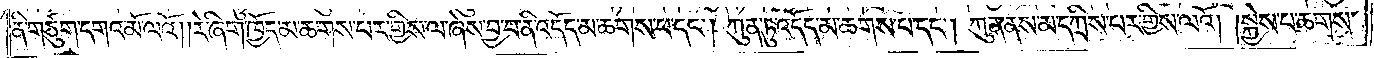ནི་གཙུག་དགའ་མོ་ལའོ། །རེ་ཞིག་ཁྱོད་མ་ཆགས་པར་གྱིས་ལ་ཞེས་བྱ་བ་ནི་འདོད་མ་ཆགས་པ་དང༌། ཀུན་ཏུ་འདོད་མ་ཆགས་པ་དང༌། ཀུན་ནས་མ་དཀྲིས་པར་གྱིས་ལའོ། །སྐྱེས་པ་ཆགས་
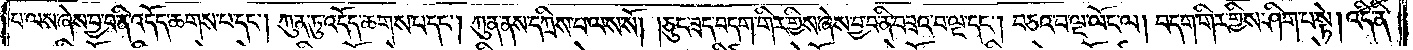པ་ལས་ཞེས་བྱ་བ་ནི་འདོད་ཆགས་པ་དང༌། ཀུན་ཏུ་འདོད་ཆགས་པ་དང༌། ཀུན་ནས་དཀྲིས་པ་ལས་སོ། །ཅུང་ཟད་བདག་གིར་གྱིས་ཞེས་བྱ་བ་ནི་བཟའ་བ་ལྔ་དང༌། བཅའ་བ་ལྔ་ལོང་ལ། བདག་གིར་གྱིས་ཤིག་པ་སྟེ། འདི་ནི་
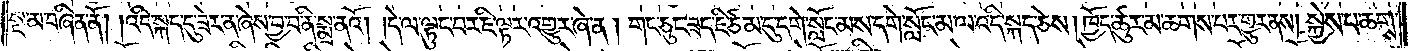སྔ་མ་བཞིན་ནོ། །འདི་སྐད་དུ་ཟེར་ན་ཞེས་བྱ་བ་ནི་སྨྲ་ནའོ། །དེ་ལ་ལྟུང་བར་ཇི་ལྟར་འགྱུར་ཞེ་ན། གང་ཅུང་ཟད་ཇི་ཙམ་དུ་དགེ་སློང་མས་དགེ་སློང་མ་ལ་འདི་སྐད་ཅེས། ཁྱོད་ཚུར་མ་ཆགས་པར་གྱུར་ནས། སྐྱེས་པ་ཆགས་
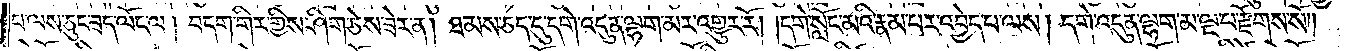པ་ལས་ཅུང་ཟད་ལོང་ལ། བདག་གིར་གྱིས་ཤིག་ཅེས་ཟེར་ན། ཐམས་ཅད་དུ་དགེ་འདུན་ལྷག་མར་འགྱུར་རོ། །དགེ་སློང་མའི་རྣམ་པར་འབྱེད་པ་ལས། དགེ་འདུན་ལྷག་མ་ལྔ་པ་རྫོགས་སོ༎
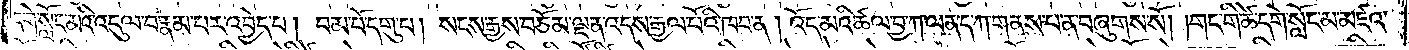དགེ་སློང་མའི་འདུལ་བ་རྣམ་པར་འབྱེད་པ། བམ་པོ་དགུ་པ། སངས་རྒྱས་བཅོམ་ལྡན་འདས་རྒྱལ་པོའི་ཁབ་ན། འོད་མའི་ཚལ་བྱ་ཀ་ལན་ད་ཀ་གནས་པ་ན་བཞུགས་སོ། །གང་གི་ཚེ་དགེ་སློང་མ་མཛའ་
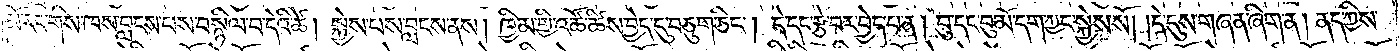མོ་རང་གིས་ཁས་བླངས་པས་བསྙིལ་བ་དེའི་ཚེ། སྐྱེས་པས་བླངས་ནས། ཁྱིམ་གྱི་འཚོ་ཚིས་བྱེད་དུ་བཅུག་ཅིང༌། དེ་དང་རྩེ་བར་བྱེད་པ་ན། བུ་དང་བུ་མོ་དག་ཀྱང་སྐྱེས་སོ། །དེ་དུས་གཞན་ཞིག་ན། ནད་ཀྱིས་
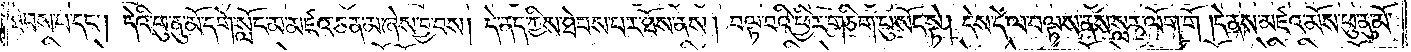ཐེབས་པ་དང༌། དེའི་ཕུ་ནུ་མོ་དགེ་སློང་མ་མཛའ་ཅན་མ་ཞེས་བྱ་བས། དེ་ནད་ཀྱིས་ཐེབས་པར་ཐོས་ནས། བལྟ་བའི་ཕྱིར་གཅིག་པུ་སོང་སྟེ། དེས་དེ་ལ་བལྟས་ནས་སླར་ལོག་གོ །དེ་ནས་མཛའ་མོས་ཕུ་ནུ་མོ་
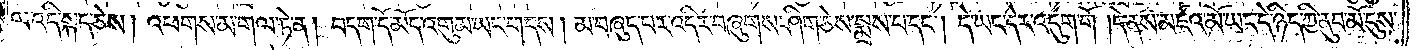ལ་འདི་སྐད་ཅེས། འཕགས་མ་གལ་ཏེ་ན། བདག་དོ་མོད་འགུམ་ཡང་གདས། མ་བཞུད་པར་འདིར་བཞུགས་ཤིག་ཅེས་སྨྲས་པ་དང༌། དེ་ཡང་དེར་འདུག་གོ །དེ་ནས་མཛའ་མོ་ཡང་དེ་ཉིད་ཀྱི་ནུབ་མོ་དུས་
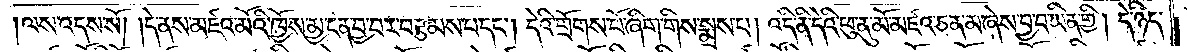ལས་འདས་སོ། །དེ་ནས་མཛའ་མོའི་ཁྱོས་མྱ་ངན་བྱ་བར་བརྩམས་པ་དང༌། དེའི་གྲོགས་པོ་ཞིག་གིས་སྨྲས་པ། འདི་ནི་དེའི་ཕུ་ནུ་མོ་མཛའ་ཅན་མ་ཞེས་བྱ་བ་ཡིན་གྱི། དེ་ཉིད་
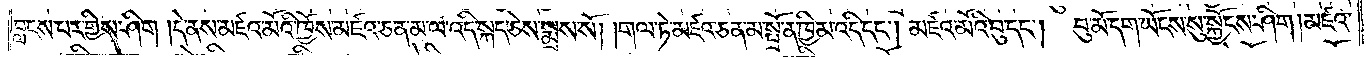བླངས་པར་གྱིས་ཤིག །དེ་ནས་མཛའ་མོའི་ཁྱོས་མཛའ་ཅན་མ་ལ་འདི་སྐད་ཅེས་སྨྲས་སོ། །གལ་ཏེ་མཛའ་ཅན་མ་སྤྲོ་ན་ཁྱིམ་འདི་དང༌། མཛའ་མོའི་བུ་དང༌། བུ་མོ་དག་ཡོངས་སུ་སྐྱོངས་ཤིག །མཛའ་
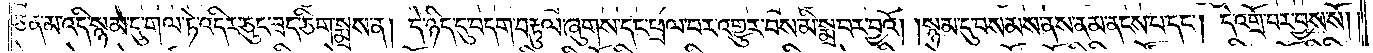ཅན་མ་འདི་སྙམ་དུ་གལ་ཏེ་འདིར་ཅུང་ཟད་ཅིག་སྨྲས་ན། དེ་ཉིད་དུ་བདག་བརྟུལ་ཞུགས་དང་ཕྲལ་བར་འགྱུར་བས་མི་སྨྲ་བར་བྱའོ། །སྙམ་དུ་བསམས་ནས་ནམ་ནངས་པ་དང༌། དེ་འགྲོ་བར་བྱས་སོ། །
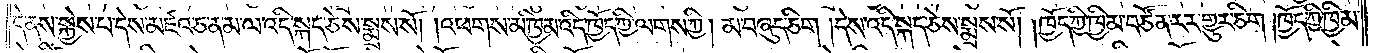དེ་ནས་སྐྱེས་པ་དེས་མཛའ་ཅན་མ་ལ་འདི་སྐད་ཅེས་སྨྲས་སོ། །འཕགས་མ་ཁྱིམ་འདི་ཁྱོད་ཀྱི་ལགས་ཀྱི། མ་བཞུད་ཅིག །དེས་འདི་སྐད་ཅེས་སྨྲས་སོ། །ཁྱོད་ཀྱི་ཁྱིམ་བཙོན་རར་གྱུར་ཅིག །ཁྱོད་ཀྱི་ཁྱིམ་
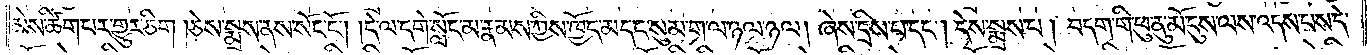མེས་ཚིག་པར་གྱུར་ཅིག །ཅེས་སྨྲས་ནས་སོང་ངོ༌། །དེ་ལ་དགེ་སློང་མ་རྣམས་ཀྱིས་ཁྱོད་མདང་སུམ་ག་ལ་ཉལ་ཉལ། ཞེས་དྲིས་པ་དང༌། དེས་སྨྲས་པ། བདག་གི་ཕུ་ནུ་མོ་དུས་ལས་འདས་པས་དེ་
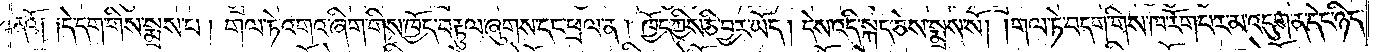ནའོ། །དེ་དག་གིས་སྨྲས་པ། གལ་ཏེ་འགའ་ཞིག་གིས་ཁྱོད་བརྟུལ་ཞུགས་དང་ཕྲལ་ན། ཁྱོད་ཀྱིས་ཅི་བྱར་ཡོད། དེས་འདི་སྐད་ཅེས་སྨྲས་སོ། །གལ་ཏེ་བདག་གིས་ཁ་རོག་པར་མ་འདུག་ན་དེང་ཉིད་
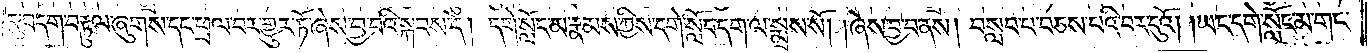དུ་བདག་བརྟུལ་ཞུགས་དང་ཕྲལ་བར་གྱུར་ཏོ་ཞེས་བྱ་བའི་སྐབས་དེ། དགེ་སློང་མ་རྣམས་ཀྱིས་དགེ་སློང་དག་ལ་སྨྲས་སོ། །ཞེས་བྱ་བ་ནས། བསླབ་པ་བཅས་པའི་བར་དུའོ། །ཡང་དགེ་སློང་མ་གང་
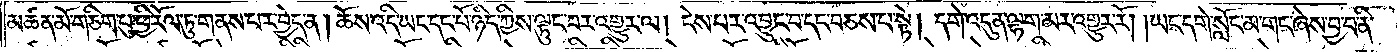མཚན་མོ་གཅིག་པུ་ཕྱི་རོལ་ཏུ་གནས་པར་བྱེད་ན། ཆོས་འདི་ཡང་དང་པོ་ཉིད་ཀྱིས་ལྟུང་བར་འགྱུར་ལ། ངེས་པར་འབྱུང་བ་དང་བཅས་པ་སྟེ། དགེ་འདུན་ལྷག་མར་འགྱུར་རོ། །ཡང་དགེ་སློང་མ་གང་ཞེས་བྱ་བ་ནི་
